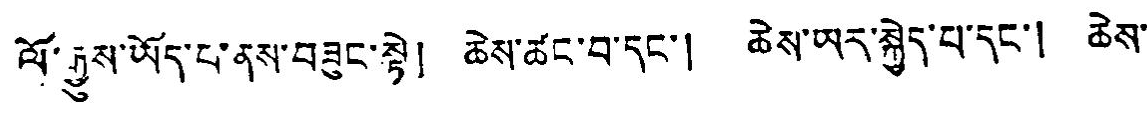ལོ་རྒྱུས་ཡོད་པ་ནས་བཟུང་སྟེ། ཆེས་ཚང་བ་དང་། ཆེས་ཡར་སྐྱེད་པ་དང་། ཆེས་
